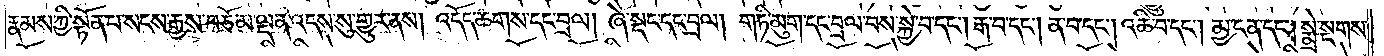རྣམས་ཀྱི་སྟོན་པ་སངས་རྒྱས་བཅོམ་ལྡན་འདས་སུ་གྱུར་ནས། འདོད་ཆགས་དང་བྲལ། ཞེ་སྡང་དང་བྲལ། གཏི་མུག་དང་བྲལ་བས་སྐྱེ་བ་དང༌། རྒ་བ་དང༌། ན་བ་དང༌། འཆི་བ་དང༌། མྱ་ངན་དང༌། སྨྲེ་སྔགས་
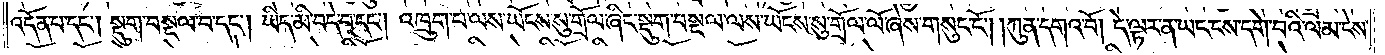འདོན་པ་དང༌། སྡུག་བསྔལ་པ་དང༌། ཡིད་མི་བདེ་བ་དང༌། འཁྲུག་པ་ལས་ཡོངས་སུ་གྲོལ་ཞིང་སྡུག་བསྔལ་ལས་ཡོངས་སུ་གྲོལ་ལོ་ཞེས་གསུང་ངོ༌། །ཀུན་དགའ་བོ། དེ་ལྟར་ན་ཡང་ངས་དགེ་བའི་ལམ་ངེས་
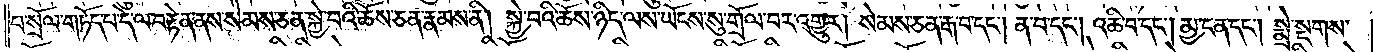པ་སྲོལ་གཏོད་པ་དེ་ལ་བརྟེན་ནས་སེམས་ཅན་སྐྱེ་བའི་ཆོས་ཅན་རྣམས་ནི། སྐྱེ་བའི་ཆོས་ཉིད་ལས་ཡོངས་སུ་གྲོལ་བར་འགྱུར། སེམས་ཅན་རྒ་བ་དང༌། ན་བ་དང༌། འཆི་བ་དང༌། མྱ་ངན་དང༌། སྨྲེ་སྔགས་
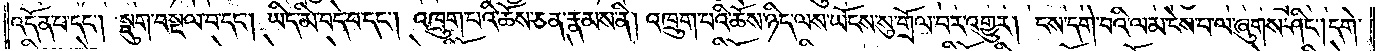འདོན་པ་དང༌། སྡུག་བསྔལ་བ་དང༌། ཡིད་མི་བདེ་བ་དང༌། འཁྲུག་པའི་ཆོས་ཅན་རྣམས་ནི། འཁྲུག་པའི་ཆོས་ཉིད་ལས་ཡོངས་སུ་གྲོལ་བར་འགྱུར། ངས་དགེ་བའི་ལམ་ངེས་པ་ལ་ཞུགས་ཤིང༌། དགེ་
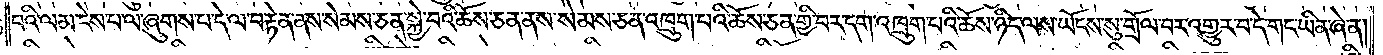བའི་ལམ་ངེས་པ་ལ་ཞུགས་པ་དེ་ལ་བརྟེན་ནས་སེམས་ཅན་སྐྱེ་བའི་ཆོས་ཅན་ནས་སེམས་ཅན་འཁྲུག་པའི་ཆོས་ཅན་གྱི་བར་དག་འཁྲུག་པའི་ཆོས་ཉིད་ལས་ཡོངས་སུ་གྲོལ་བར་འགྱུར་བ་དེ་གང་ཡིན་ཞེ་ན།
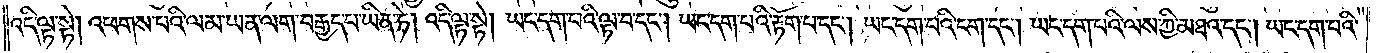འདི་ལྟ་སྟེ། འཕགས་པའི་ལམ་ཡན་ལག་བརྒྱད་པ་ཡིན་ཏེ། འདི་ལྟ་སྟེ། ཡང་དག་པའི་ལྟ་བ་དང༌། ཡང་དག་པའི་རྟོག་པ་དང༌། ཡང་དག་པའི་ངག་དང༌། ཡང་དག་པའི་ལས་ཀྱི་མཐའ་དང༌། ཡང་དག་པའི་
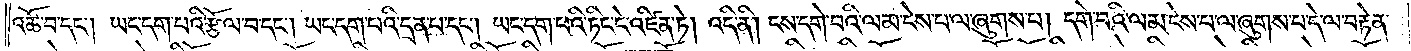འཚོ་བ་དང༌། ཡང་དག་པའི་རྩོལ་བ་དང༌། ཡང་དག་པའི་དྲན་པ་དང༌། ཡང་དག་པའི་ཏིང་ངེ་འཛིན་ཏེ། འདི་ནི། ངས་དགེ་བའི་ལམ་ངེས་པ་ལ་ཞུགས་པ། དགེ་བའི་ལམ་ངེས་པ་ལ་ཞུགས་པ་དེ་ལ་བརྟེན་
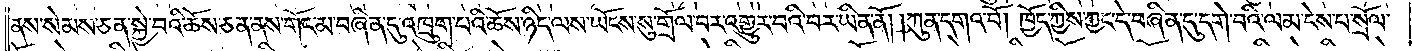ནས་སེམས་ཅན་སྐྱེ་བའི་ཆོས་ཅན་ནས་གོང་མ་བཞིན་དུ་འཁྲུག་པའི་ཆོས་ཉིད་ལས་ཡོངས་སུ་གྲོལ་བར་འགྱུར་བའི་བར་ཡིན་ནོ། །ཀུན་དགའ་བོ། ཁྱོད་ཀྱིས་ཀྱང་དེ་བཞིན་དུ་དགེ་བའི་ལམ་ངེས་པ་སྲོལ་
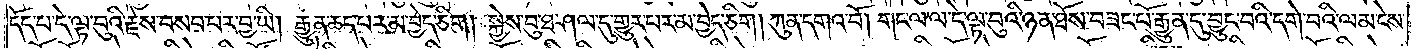དོད་པ་དེ་ལྟ་བུའི་རྗེས་བསབ་པར་བྱ་ཡི། རྒྱུན་ཆད་པར་མ་བྱེད་ཅིག །སྐྱེས་བུ་ཐ་ཤལ་དུ་གྱུར་པར་མ་བྱེད་ཅིག །ཀུན་དགའ་བོ། གང་ལ་ལ་དེ་ལྟ་བུའི་ཉན་ཐོས་བཟང་པོ་རྒྱུན་དུ་བྱུང་བའི་དགེ་བའི་ལམ་ངེས་
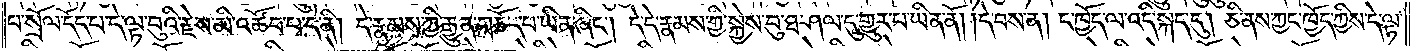པ་སྲོལ་དོད་པ་དེ་ལྟ་བུའི་རྗེས་མི་འཚོབ་པ་དེ་ནི། དེ་རྣམས་ཀྱི་རྒྱུན་གཅོད་པ་ཡིན་ཞིང༌། དེ་དེ་རྣམས་ཀྱི་སྐྱེས་བུ་ཐ་ཤལ་དུ་གྱུར་པ་ཡིན་ནོ། །དེ་བས་ན། ང་ཁྱོད་ལ་འདི་སྐད་དུ། ཅི་ནས་ཀྱང་ཁྱོད་ཀྱིས་དེ་ལྟ་
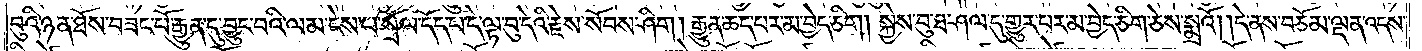བུའི་ཉན་ཐོས་བཟང་པོ་རྒྱུན་དུ་བྱུང་བའི་ལམ་ངེས་པ་སྲོལ་དོད་པ་དེ་ལྟ་བུ་དེའི་རྗེས་སུ་སོབས་ཤིག །རྒྱུན་ཆད་པར་མ་བྱེད་ཅིག །སྐྱེས་བུ་ཐ་ཤལ་དུ་གྱུར་པར་མ་བྱེད་ཅིག་ཅེས་སྨྲའོ། །དེ་ནས་བཅོམ་ལྡན་འདས་
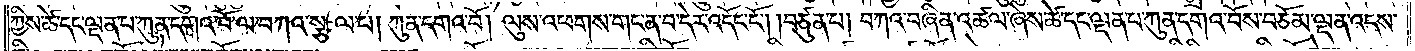ཀྱིས་ཚེ་དང་ལྡན་པ་ཀུན་དགའ་བོ་ལ་བཀའ་སྩལ་པ། ཀུན་དགའ་བོ། ལུས་འཕགས་གང་ན་བ་དེར་འདོང་ངོ༌། །བཙུན་པ། བཀའ་བཞིན་འཚལ་ཞེས་ཚེ་དང་ལྡན་པ་ཀུན་དགའ་བོས་བཅོམ་ལྡན་འདས་
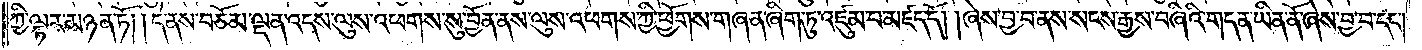ཀྱི་ལྟར་མཉན་ཏོ། །དེ་ནས་བཅོམ་ལྡན་འདས་ལུས་འཕགས་སུ་བྱོན་ནས་ལུས་འཕགས་ཀྱི་ཕྱོགས་གཞན་ཞིག་ཏུ་འཛུམ་པ་མཛད་དོ། །ཞེས་བྱ་བ་ནས་སངས་རྒྱས་བཞིའི་གདན་ཡིན་ནོ་ཞེས་བྱ་བ་དང༌།
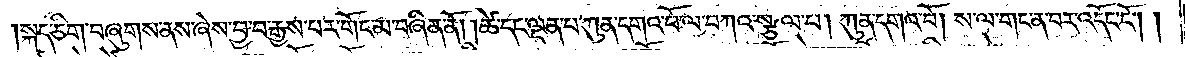།སྐད་ཅིག་བཞུགས་ནས་ཞེས་བྱ་བ་རྒྱས་པར་གོང་མ་བཞིན་ནོ། །ཚེ་དང་ལྡན་པ་ཀུན་དགའ་བོ་ལ་བཀའ་སྩལ་པ། ཀུན་དགའ་བོ། ས་ལ་གང་ན་བར་འདོང་ངོ༌། །
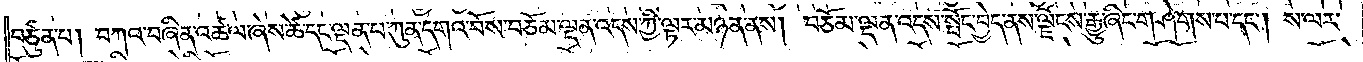བཙུན་པ། བཀའ་བཞིན་འཚལ་ཞེས་ཚེ་དང་ལྡན་པ་ཀུན་དགའ་བོས་བཅོམ་ལྡན་འདས་ཀྱི་ལྟར་མཉན་ནས། བཅོམ་ལྡན་འདས་སྤོང་བྱེད་ནས་ལྗོངས་རྒྱུ་ཞིང་གཤེགས་པ་དང༌། ས་ལར་
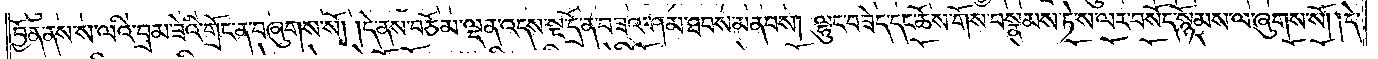བྱོན་ནས་ས་ལའི་བྲམ་ཟེའི་གྲོང་ན་བཞུགས་སོ། །དེ་ནས་བཅོམ་ལྡན་འདས་སྔ་དྲོ་ན་བཟའ་ཤམ་ཐབས་མནབས། ལྷུང་བཟེད་དང་ཆོས་གོས་བསྣམས་ཏེ་ས་ལར་བསོད་སྙོམས་ལ་ཞུགས་སོ། །དེ་
